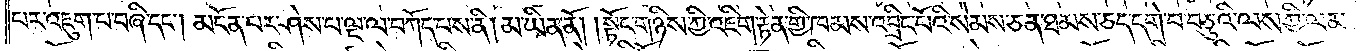པར་འཇུག་པ་བཞི་དང༌། མངོན་པར་ཤེས་པ་ལྔ་ལ་བཀོད་པས་ནི། མ་ཡིན་ནོ། །སྟོང་གཉིས་ཀྱི་འཇིགས་རྟེན་གྱི་ཁམས་འབྲིང་པོའི་སེམས་ཅན་ཐམས་ཅད་དགེ་བ་བཅུའི་ལས་ཀྱི་ལམ་
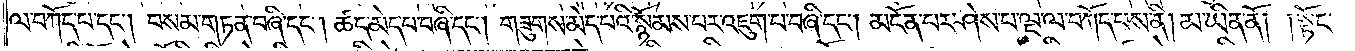ལ་བཀོད་པ་དང༌། བསམ་གཏན་བཞི་དང༌། ཚད་མེད་པ་བཞི་དང༌། གཟུགས་མེད་པའི་སྙོམས་པར་འཇུག་པ་བཞི་དང༌། མངོན་པར་ཤེས་པ་ལྔ་ལ་བཀོད་པས་ནི། མ་ཡིན་ནོ། །སྟོང་
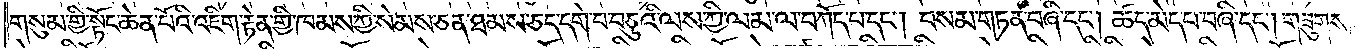གསུམ་གྱི་སྟོང་ཆེན་པོའི་འཇིག་རྟེན་གྱི་ཁམས་ཀྱི་སེམས་ཅན་ཐམས་ཅད་དགེ་བ་བཅུའི་ལས་ཀྱི་ལམ་ལ་བཀོད་པ་དང༌། བསམ་གཏན་བཞི་དང༌། ཚད་མེད་པ་བཞི་དང༌། གཟུགས་
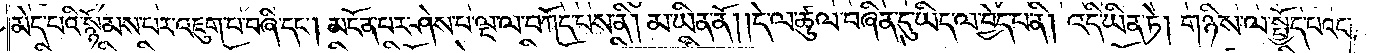མེད་པའི་སྙོམས་པར་འཇུག་པ་བཞི་དང༌། མངོན་པར་ཤེས་པ་ལྔ་ལ་བཀོད་པས་ནི། མ་ཡིན་ནོ། །དེ་ལ་ཚུལ་བཞིན་དུ་ཡིད་ལ་བྱེད་པ་ནི། འདི་ཡིན་ཏེ། གཉིས་ལ་སྤྱོད་པའང་
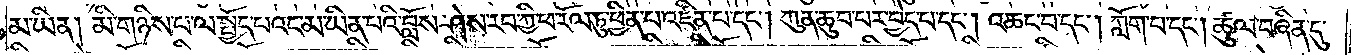མ་ཡིན། མི་གཉིས་པ་ལ་སྤྱོད་པའང་མ་ཡིན་པའི་བློས་ཤེས་རབ་ཀྱི་ཕ་རོལ་ཏུ་ཕྱིན་པ་འཛིན་པ་དང༌། ཀུན་ཆུབ་པར་བྱད་པ་དང༌། འཆང་བ་དང༌། ཀློག་པ་དང༌། ཚུལ་བཞིན་དུ་
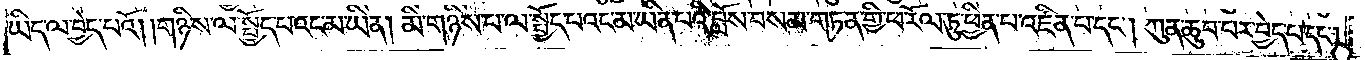ཡིད་ལ་བྱེད་པའོ། །གཉིས་ལ་སྤྱོད་པའང་མ་ཡིན། མི་གཉིས་པ་ལ་སྤྱོད་པའང་མ་ཡིན་པའི་བློས་བསམ་གཏན་གྱི་ཕ་རོལ་ཏུ་ཕྱིན་པ་འཛིན་པ་དང༌། ཀུན་ཆུབ་པར་བྱེད་པ་དང༌།
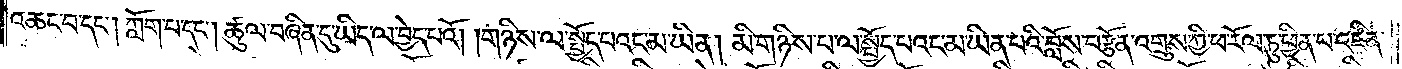འཆང་བ་དང༌། ཀློག་པ་དང༌། ཚུལ་བཞིན་དུ་ཡིད་ལ་བྱེད་པའོ། །གཉིས་ལ་སྤྱོད་པའང་མ་ཡིན། མི་གཉིས་པ་ལ་སྤྱོད་པའང་མ་ཡིན་པའི་བློས་བརྩོན་འགྲུས་ཀྱི་ཕ་རོལ་ཏུ་ཕྱིན་པ་འཛིན་
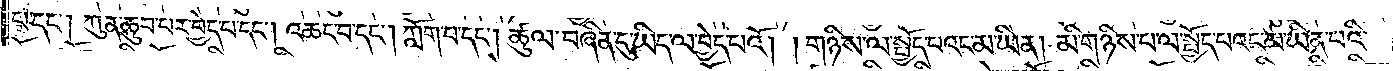པ་དང༌། ཀུན་ཆུབ་པར་བྱེད་པ་དང༌། འཆང་བ་དང༌། ཀློག་པ་དང༌། ཚུལ་བཞིན་དུ་ཡིད་ལ་བྱེད་པའོ། །གཉིས་ལ་སྤྱོད་པའང་མ་ཡིན། མི་གཉིས་པ་ལ་སྤྱོད་པའང་མ་ཡིན་པའི་
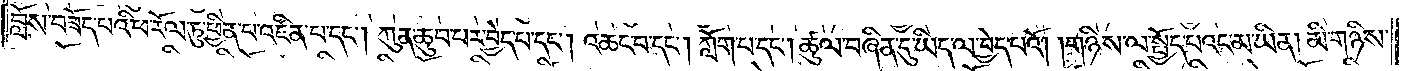བློས་བཟོད་པའི་ཕ་རོལ་ཏུ་ཕྱིན་པ་འཛིན་པ་དང༌། ཀུན་ཆུབ་པར་བྱེད་པ་དང༌། འཆང་བ་དང༌། ཀློག་པ་དང༌། ཚུལ་བཞིན་དུ་ཡིད་ལ་བྱེད་པའོ། །གཉིས་ལ་སྤྱོད་པའང་མ་ཡིན། མི་གཉིས་
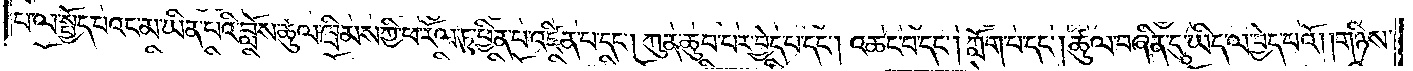པ་ལ་སྤྱོད་པའང་མ་ཡིན་པའི་བློས་ཚུལ་ཁྲིམས་ཀྱི་ཕ་རོལ་ཏུ་ཕྱིན་པ་འཛིན་པ་དང༌། ཀུན་ཆུབ་པར་བྱེད་པ་དང༌། འཆང་བ་དང༌། ཀློག་པ་དང༌། ཚུལ་བཞིན་དུ་ཡིད་ལ་བྱེད་པའོ། །གཉིས་
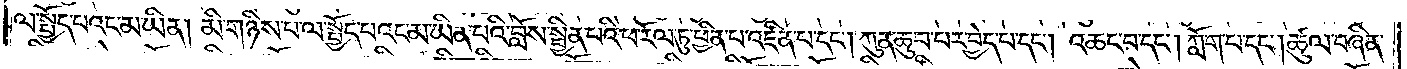ལ་སྤྱོད་པའང་མ་ཡིན། མི་གཉིས་པ་ལ་སྤྱོད་པའང་མ་ཡིན་པའི་བློས་སྦྱིན་པའི་ཕ་རོལ་ཏུ་ཕྱིན་པ་འཛིན་པ་དང༌། ཀུན་ཆུབ་པར་བྱེད་པ་དང༌། འཆང་བ་དང༌། ཀློག་པ་དང༌། ཚུལ་བཞིན་
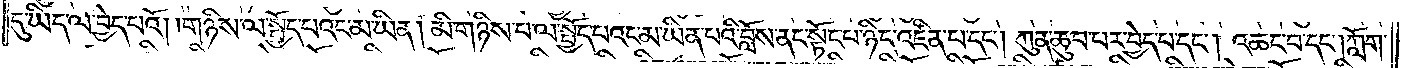དུ་ཡིད་ལ་བྱེད་པའོ། །གཉིས་ལ་སྤྱོད་པའང་མ་ཡིན། མི་གཉིས་པ་ལ་སྤྱོད་པའང་མ་ཡིན་པའི་བློས་ནང་སྟོང་པ་ཉིད་འཛིན་པ་དང༌། ཀུན་ཆུབ་པར་བྱེད་པ་དང༌། འཆང་བ་དང༌། ཀློག་
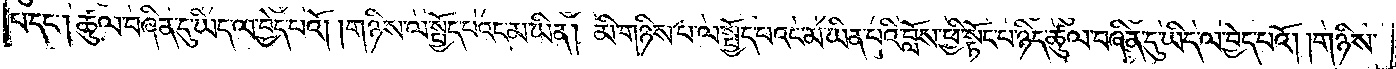པ་དང༌། ཚུལ་བཞིན་དུ་ཡིད་ལ་བྱེད་པའོ། །གཉིས་ལ་སྤྱོད་པའང་མ་ཡིན། མི་གཉིས་པ་ལ་སྤྱོད་པའང་མ་ཡིན་པའི་བློས་ཕྱི་སྟོང་པ་ཉིད་ཚུལ་བཞིན་དུ་ཡིད་ལ་བྱེད་པའོ། །གཉིས་
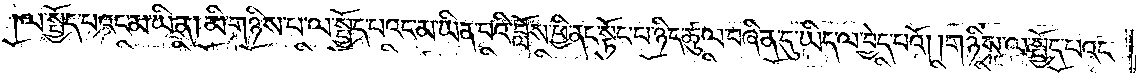ལ་སྤྱོད་པའང་མ་ཡིན། མི་གཉིས་པ་ལ་སྤྱོད་པའང་མ་ཡིན་པའི་བློས་ཕྱི་ནང་སྟོང་པ་ཉིད་ཚུལ་བཞིན་དུ་ཡིད་ལ་བྱེད་པའོ། །གཉིས་ལ་སྤྱོད་པའང་
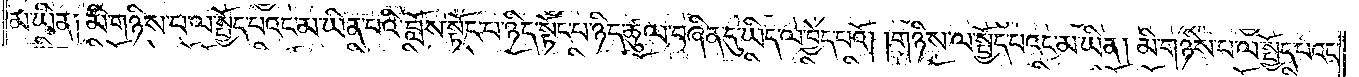མ་ཡིན༑ མི་གཉིས་པ་ལ་སྤྱོད་པའང་མ་ཡིན་པའི་བློས་སྟོང་པ་ཉིད་སྟོང་པ་ཉིད་ཚུལ་བཞིན་དུ་ཡིད་ལ་བྱེད་པའོ། །གཉིས་ལ་སྤྱད་པའང་མ་ཡིན། མི་གཉིས་པ་ལ་སྤྱོད་པའང་
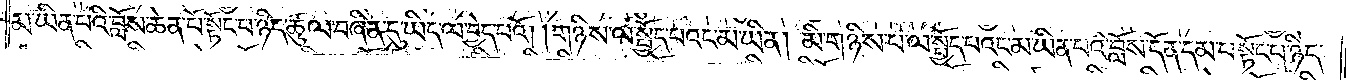མ་ཡིན་པའི་བློས་ཆེན་པོ་སྟོང་པ་ཉིད་ཚུལ་བཞིན་དུ་ཡིད་ལ་བྱེད་པའོ། །གཉིས་ལ་སྤྱོད་པའང་མ་ཡིན། མི་གཉིས་པ་ལ་སྤྱོད་པའང་མ་ཡིན་པའི་བློས་དོན་དམ་པ་སྟོང་པ་ཉིད་
